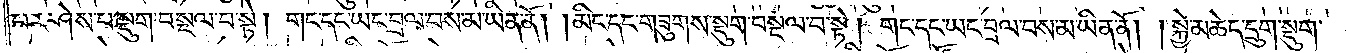པར་ཤེས་པ་སྡུག་བསྔལ་བ་སྟེ། གང་དང་ཡང་བྲལ་བས་མ་ཡིན་ནོ། །མིང་དང་གཟུགས་སྡུག་བསྔལ་བ་སྟེ། གང་དང་ཡང་བྲལ་བས་མ་ཡིན་ནོ། །སྐྱེ་མཆེད་དྲུག་སྡུག་
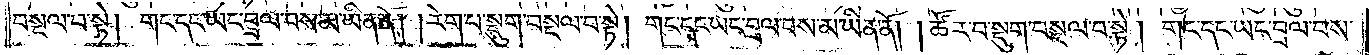བསྔལ་བ་སྟེ། གང་དང་ཡང་བྲལ་བས་མ་ཡིན་ནོ། །རེག་པ་སྡུག་བསྔལ་བ་སྟེ། གང་དང་ཡང་བྲལ་བས་མ་ཡིན་ནོ། །ཚོར་བ་སྡུག་བསྔལ་བ་སྟེ། གང་དང་ཡང་བྲལ་བས་
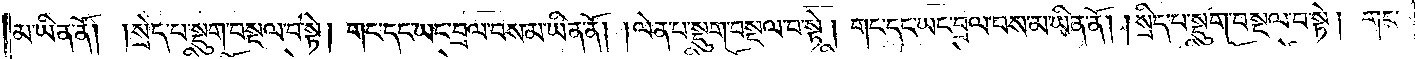མ་ཡིན་ནོ། །སྲེད་པ་སྡུག་བསྔལ་བ་སྟེ། གང་དང་ཡང་བྲལ་བས་མ་ཡིན་ནོ། །ལེན་པ་སྡུག་བསྔལ་བ་སྟེ། གང་དང་ཡང་བྲལ་བས་མ་ཡིན་ནོ། །སྲིད་པ་སྡུག་བསྔལ་བ་སྟེ། གང་
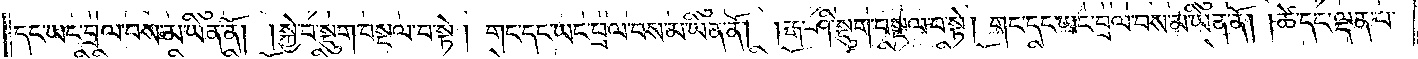དང་ཡང་བྲལ་བས་མ་ཡིན་ནོ། །སྐྱེ་བ་སྡུག་བསྔལ་བ་སྟེ། གང་དང་ཡང་བྲལ་བས་མ་ཡིན་ནོ། །རྒ་ཤི་སྡུག་བསྔལ་བ་སྟེ། གང་དང་ཡང་བྲལ་བས་མ་ཡིན་ནོ། །ཚེ་དང་ལྡན་པ་
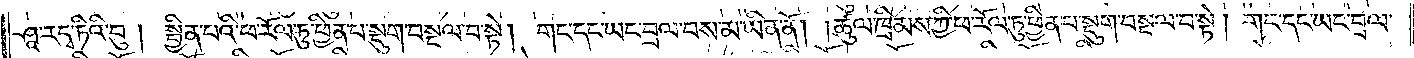ཤཱ་ར་དྭ་ཏིའི་བུ། སྦྱིན་པའི་ཕ་རོལ་ཏུ་ཕྱིན་པ་སྡུག་བསྔལ་བ་སྟེ། གང་དང་ཡང་བྲལ་བས་མ་ཡིན་ནོ། ཚུལ་ཁྲིམས་ཀྱི་ཕ་རོལ་ཏུ་ཕྱིན་པ་སྡུག་བསྔལ་བ་སྟེ། གང་དང་ཡང་བྲལ་
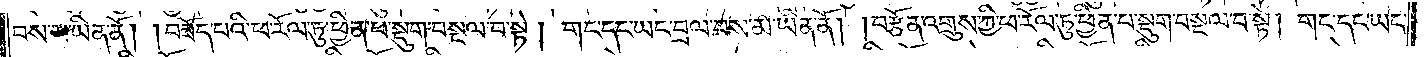བས་མ་ཡིན་ནོ། །བཟོད་པའི་ཕ་རོལ་ཏུ་ཕྱིན་པ་སྡུག་བསྔལ་བ་སྟེ། གང་དང་ཡང་བྲལ་བས་མ་ཡིན་ནོ། །བརྩོན་འགྲུས་ཀྱི་ཕ་རོལ་ཏུ་ཕྱིན་པ་སྡུག་བསྔལ་བ་སྟེ། གང་དང་ཡང་
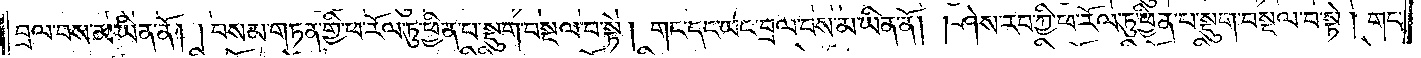བྲལ་བས་མ་ཡིན་ནོ། །བསམ་གཏན་གྱི་ཕ་རོལ་ཏུ་ཕྱིན་པ་སྡུག་བསྔལ་བ་སྟེ། གང་དང་ཡང་བྲལ་བས་མ་ཡིན་ནོ། །ཤེས་རབ་ཀྱི་ཕ་རོལ་ཏུ་ཕྱིན་པ་སྡུག་བསྔལ་བ་སྟེ། གང་
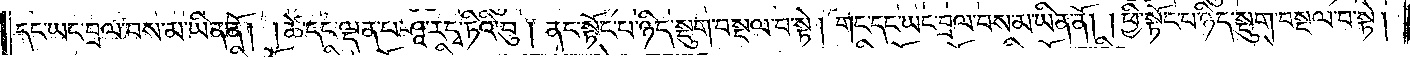དང་ཡང་བྲལ་བས་མ་ཡིན་ནོ། །ཚེ་དང་ལྡན་པ་ཤཱ་ར་དྭ་ཏིའི་བུ། ནང་སྟོང་པ་ཉིད་སྡུག་བསྔལ་བ་སྟེ། གང་དང་ཡང་བྲལ་བས་མ་ཡིན་ནོ། །ཕྱི་སྟོང་པ་ཉིད་སྡུག་བསྔལ་བ་སྟེ།
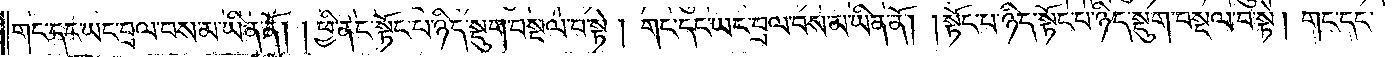གང་དང་ཡང་བྲལ་བས་མ་ཡིན་ནོ། །ཕྱི་ནང་སྟོང་པ་ཉིད་སྡུག་བསྔལ་བ་སྟེ། གང་དང་ཡང་བྲལ་བས་མ་ཡིན་ནོ། །སྟོང་པ་ཉིད་སྟོང་པ་ཉིད་སྡུག་བསྔལ་བ་སྟེ། གང་དང་
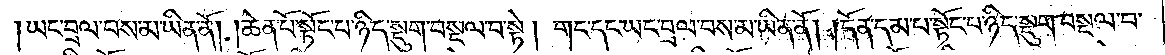ཡང་བྲལ་བས་མ་ཡིན་ནོ། །ཆེན་པོ་སྟོང་པ་ཉིད་སྡུག་བསྔལ་བ་སྟེ། གང་དང་ཡང་བྲལ་བས་མ་ཡིན་ནོ། །དོན་དམ་པ་སྟོང་པ་ཉིད་སྡུག་བསྔལ་བ་
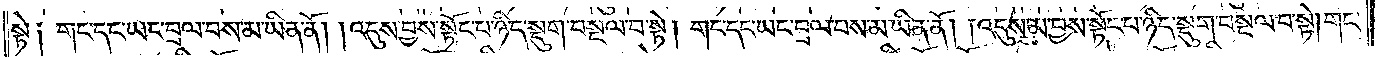སྟེ། གང་དང་ཡང་བྲལ་བས་མ་ཡིན་ནོ། །འདུས་བྱས་སྟོང་པ་ཉིད་སྡུག་བསྔལ་བ་སྟེ། གང་དང་ཡང་བྲལ་བས་མ་ཡིན་ནོ༑ །འདུས་མ་བྱས་སྟོང་པ་ཉིད་སྡུག་བསྔལ་བ་སྟེ། གང་
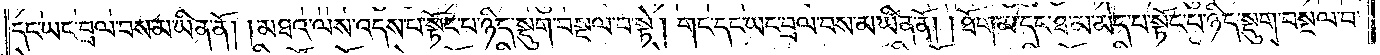དང་ཡང་བྲལ་བས་མ་ཡིན་ནོ། །མཐའ་ལས་འདས་པ་སྟོང་པ་ཉིད་སྡུག་བསྔལ་བ་སྟེ། གང་དང་ཡང་བྲལ་བས་མ་ཡིན་ནོ། །ཐོག་མ་དང་ཐ་མ་མེད་པ་སྟོང་པ་ཉིད་སྡུག་བསྔལ་བ་
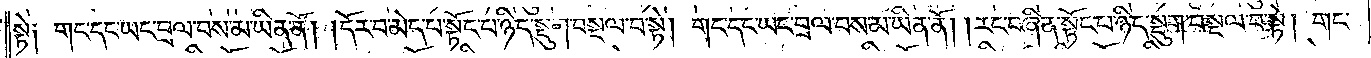སྟེ༑ གང་དང་ཡང་བྲལ་བས་མ་ཡིན་ནོ། །དོར་བ་མེད་པ་སྟོང་པ་ཉིད་སྡུག་བསྔལ་བ་སྟེ། གང་དང་ཡང་བྲལ་བས་མ་ཡིན་ནོ། །རང་བཞིན་སྟོང་པ་ཉིད་སྡུག་བསྔལ་བ་སྟེ། གང་
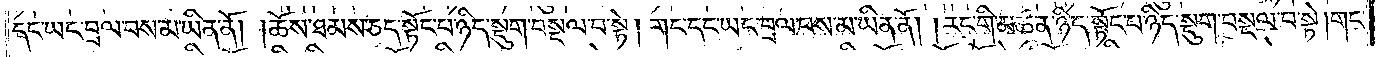དང་ཡང་བྲལ་བས་མ་ཡིན་ནོ། །ཆོས་ཐམས་ཅད་སྟོང་པ་ཉིད་སྡུག་བསྔལ་བ་སྟེ། གང་དང་ཡང་བྲལ་བས་མ་ཡིན་ནོ། །རང་གི་མཚན་ཉིད་སྟོང་པ་ཉིད་སྡུག་བསྔལ་བ་སྟེ། གང་
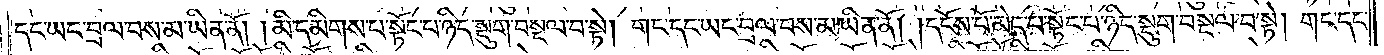དང་ཡང་བྲལ་བས་མ་ཡིན་ནོ། །མི་དམིགས་པ་སྟོང་པ་ཉིད་སྡུག་བསྔལ་བ་སྟེ། གང་དང་ཡང་བྲལ་བས་མ་ཡིན་ནོ། །དངོས་པོ་མེད་པ་སྟོང་པ་ཉིད་སྡུག་བསྔལ་བ་སྟེ། གང་དང་
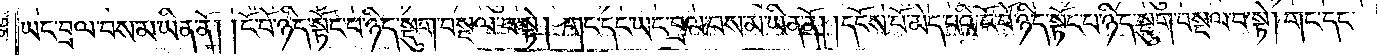ཡང་བྲལ་བས་མ་ཡིན་ནོ། །ངོ་བོ་ཉིད་སྟོང་པ་ཉིད་སྡུག་བསྔལ་བ་སྟེ། གང་དང་ཡང་བྲལ་བས་མ་ཡིན་ནོ། །དངོས་པོ་མེད་པའི་ངོ་བོ་ཉིད་སྟོང་པ་ཉིད་སྡུག་བསྔལ་བ་སྟེ། གང་དང་
